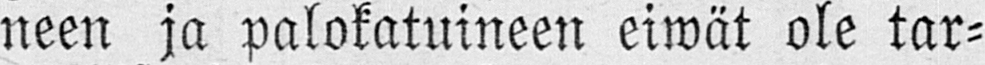neen ja palokatuineen eiwät ole tar-
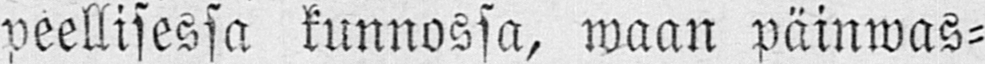peellisessä kunnossa, waan päinwas-
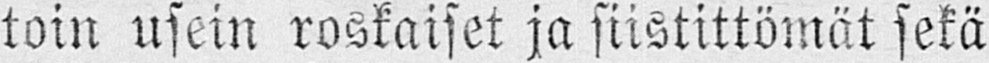toin usein roskaiset ja siistittömät sekä
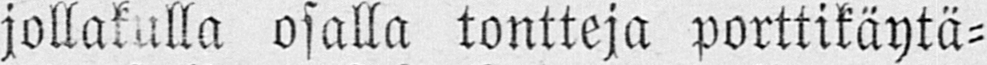jollakulla osalla tontteja porttikäytä-
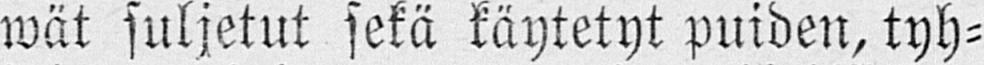wät suljetut sekä käytetyt puiden, tyh-
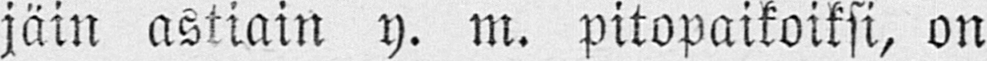jäin astiain y. m. pitopaikoiksi, on
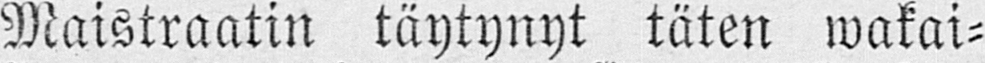Maistraatin täytynyt täten wakai-
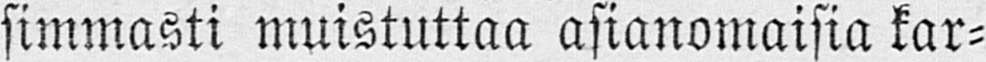simmasti muistuttaa asianomaisia kar-
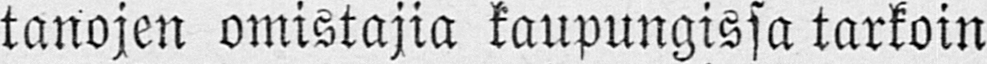tanojen omistajia kaupungissa tarkoin
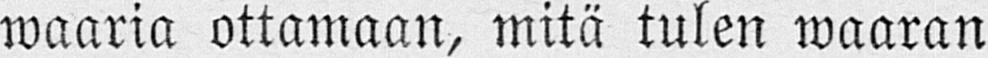waaria ottamaan, mitä tulen waaran
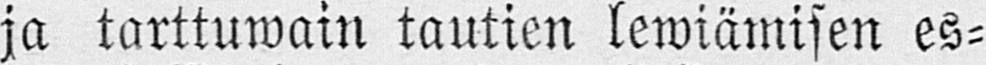ja tarttuwain tautien lewiämisen es-
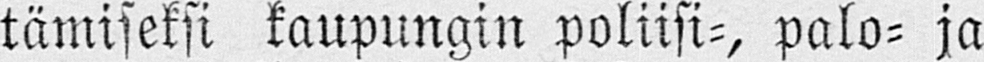tämiseksi kaupungin poliisi-, palo- ja
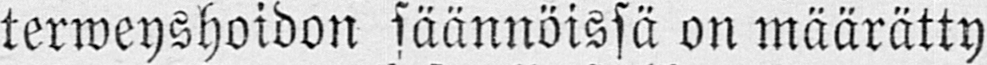terweyshoidon säännöissä on määrätty
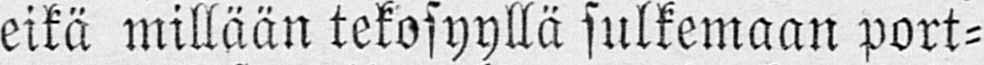eikä millään tekosyyllä sulkemaan port-
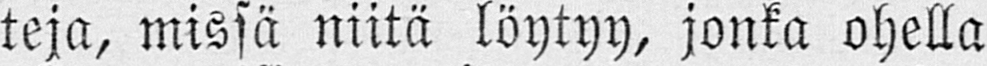teja, missä niitä löytyy, jonka ohella
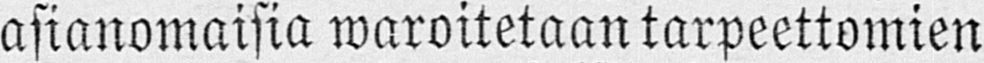asianomaisia waroitetaan tarpeettomien
